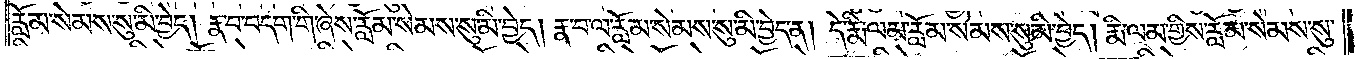རློམ་སེམས་སུ་མི་བྱེད། རྣ་བ་བདག་གི་ཞེས་རློམ་སེམས་སུ་མི་བྱེད། རྣ་བ་ལ་རློམ་སེམས་སུ་མི་བྱེད་ན། དེ་རྨི་ལམ་རློམ་སེམས་སུ་མི་བྱེད། རྨི་ལམ་གྱིས་རློམ་སེམས་སུ་
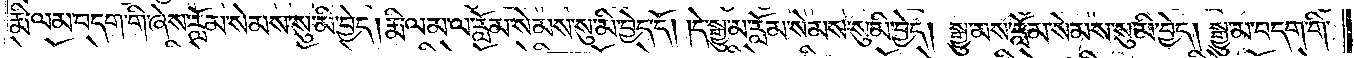རྨི་ལམ་བདག་གི་ཞེས་རློམ་སེམས་སུ་མི་བྱེད། རྨི་ལམ་ལ་རློམ་སེམས་སུ་མི་བྱེད་དོ། །དེ་སྒྱུ་མ་རློམ་སེམས་སུ་མི་བྱེད། སྒྱུ་མས་རློམ་སེམས་སུ་མི་བྱེད། སྒྱུ་མ་བདག་གི་
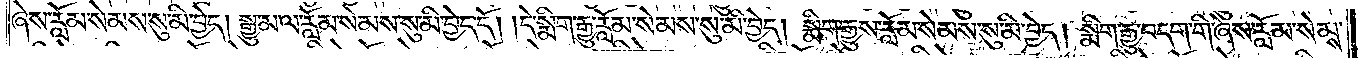ཞེས་རློམ་སེམས་སུ་མི་བྱེད། སྒྱུ་མ་ལ་རློམ་སེམས་སུ་མི་བྱེད་དོ། །དེ་སྨིག་རྒྱུ་རློམ་སེམས་སུ་མི་བྱེད། སྨིག་རྒྱུས་རློམ་སེམས་སུ་མི་བྱེད། སྨིག་རྒྱུ་བདག་གི་ཞེས་རློམ་སེམས་
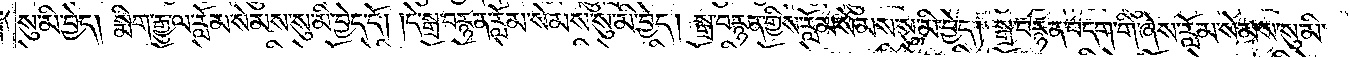སུ་མི་བྱེད། སྨིག་རྒྱུ་ལ་རློམ་སེམས་སུ་མི་བྱེད་དོ། །དེ་སྒྲ་བརྙན་རློམ་སེམས་སུ་མི་བྱེད། སྒྲ་བརྙན་གྱིས་རློམ་སེམས་སུ་མི་བྱེད། སྒྲ་བརྙན་བདག་གི་ཞེས་རློམ་སེམས་སུ་མི་
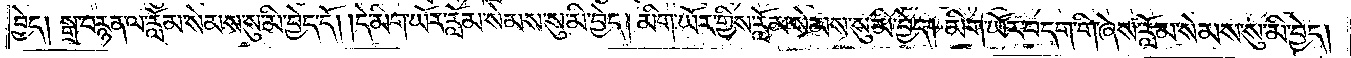བྱེད། སྒྲ་བརྙན་ལ་རློམ་སེམས་སུ་མི་བྱེད་དོ། །དེ་མིག་ཡོར་རློམ་སེམས་སུ་མི་བྱེད། མིག་ཡོར་གྱིས་རློམ་སེམས་སུ་མི་བྱེད། མིག་ཡོར་བདག་གི་ཞེས་རློམ་སེམས་སུ་མི་བྱེད།
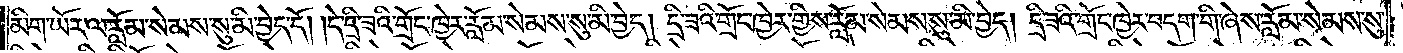མིག་ཡོར་ལ་རློམ་སེམས་སུ་མི་བྱེད་དོ། །དེ་དྲི་ཟའི་གྲོང་ཁྱེར་རློམ་སེམས་སུ་མི་བྱེད། དྲི་ཟའི་གྲོང་ཁྱེར་གྱིས་རློམ་སེམས་སུ་མི་བྱེད། དྲི་ཟའི་གྲོང་ཁྱེར་བདག་གི་ཞེས་རློམ་སེམས་སུ་
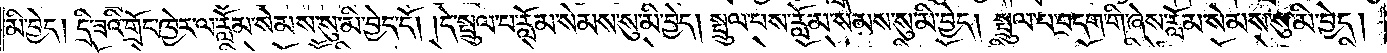མི་བྱེད། དྲི་ཟའི་གྲོང་ཁྱེར་ལ་རློམ་སེམས་སུ་མི་བྱེད་དོ། །དེ་སྤྲུལ་པ་རློམ་སེམས་སུ་མི་བྱེད། སྤྲུལ་པས་རློམ་སེམས་སུ་མི་བྱེད། སྤྲུལ་པ་བདག་གི་ཞེས་རློམ་སེམས་སུ་མི་བྱེད།
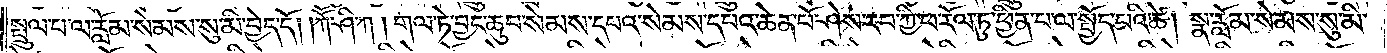སྤྲུལ་པ་ལ་རློམ་སེམས་སུ་མི་བྱེད་དོ། །ཀཽ་ཤི་ཀ། གལ་ཏེ་བྱང་ཆུབ་སེམས་དཔའ་སེམས་དཔའ་ཆེན་པོ་ཤེས་རབ་ཀྱི་ཕ་རོལ་ཏུ་ཕྱིན་པ་ལ་སྤྱོད་པའི་ཚེ། སྣ་རློམ་སེམས་སུ་མི་
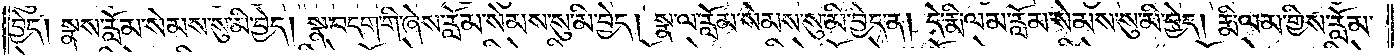བྱེད། སྣས་རློམ་སེམས་སུ་མི་བྱེད། སྣ་བདག་ཞེས་རློམ་སེམས་སུ་མི་བྱེད། སྣ་ལ་རློམ་སེམས་སུ་མི་བྱེད་ན། དེ་རྨི་ལམ་རློམ་སེམས་སུ་མི་བྱེད། རྨི་ལམ་གྱིས་རློམ་
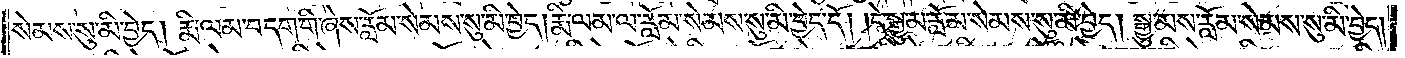སེམས་སུ་མི་བྱེད། རྨི་ལམ་བདག་གི་ཞེས་རློམ་སེམས་སུ་མི་བྱེད། རྨི་ལམ་ལ་རློམ་སེམས་སུ་མི་བྱེད་དོ། །དེ་སྒྱུ་མ་རློམ་སེམས་སུ་མི་བྱེད། སྒྱུ་མས་རློམ་སེམས་སུ་མི་བྱེད།
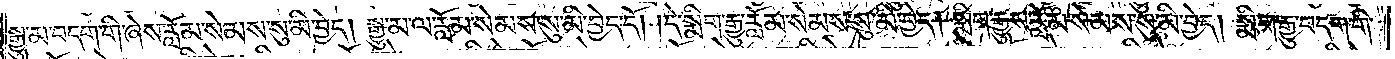སྒྱུ་མ་བདག་གི་ཞེས་རློམ་སེམས་སུ་མི་བྱེད། སྒྱུ་མ་ལ་རློམ་སེམས་སུ་མི་བྱེད་དོ། །དེ་སྨིག་རྒྱུ་རློམ་སེམས་སུ་མི་བྱེད། སྨིག་རྒྱུས་རློམ་སེམས་སུ་མི་བྱེད། སྨིག་རྒྱུ་བདག་གི་
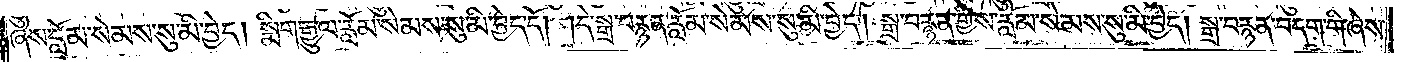ཞེས་རློམ་སེམས་སུ་མི་བྱེད། སྨིག་རྒྱུ་ལ་རློམ་སེམས་སུ་མི་བྱེད་དོ། །དེ་སྒྲ་བརྙན་རློམ་སེམས་སུ་མི་བྱེད། སྒྲ་བརྙན་གྱིས་རློམ་སེམས་སུ་མི་བྱེད། སྒྲ་བརྙན་བདག་གི་ཞེས་
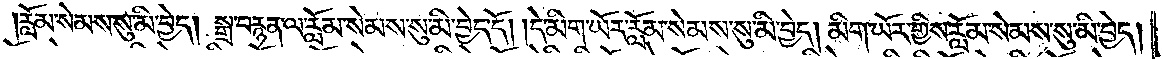རློམ་སེམས་སུ་མི་བྱེད། སྒྲ་བརྙན་ལ་རློམ་སེམས་སུ་མི་བྱེད་དོ། །དེ་མིག་ཡོར་རློམ་སེམས་སུ་མི་བྱེད། མིག་ཡོར་གྱིས་རློམ་སེམས་སུ་མི་བྱེད།
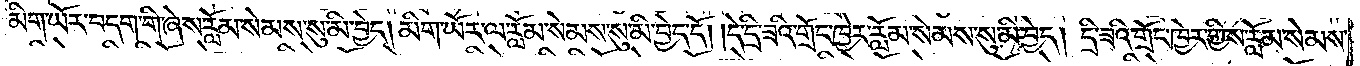མིག་ཡོར་བདག་གི་ཞེས་རློམ་སེམས་སུ་མི་བྱེད། མིག་ཡོར་ལ་རློམ་སེམས་སུ་མི་བྱེད་དོ། །དེ་དྲི་ཟའི་གྲོང་ཁྱེར་རློམ་སེམས་སུ་མི་བྱེད། དྲི་ཟའི་གྲོང་ཁྱེར་གྱིས་རློམ་སེམས་
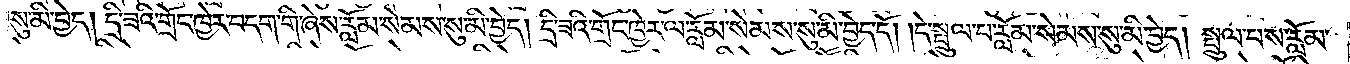སུ་མི་བྱེད། དྲི་ཟའི་གྲོང་ཁྱེར་བདག་གི་ཞེས་རློམ་སེམས་སུ་མི་བྱེད། དྲི་ཟའི་གྲོང་ཁྱེར་ལ་རློམ་སེམས་སུ་མི་བྱེད་དོ། །དེ་སྤྲུལ་པ་རློམ་སེམས་སུ་མི་བྱེད། སྤྲུལ་པས་རློམ་
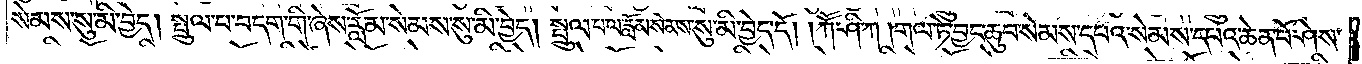སེམས་སུ་མི་བྱེད། སྤྲུལ་པ་བདག་གི་ཞེས་རློམ་སེམས་སུ་མི་བྱེད། སྤྲུལ་པ་ལ་རློམ་སེམས་སུ་མི་བྱེད་དོ། །ཀཽ་ཤི་ཀ། གལ་ཏེ་བྱང་ཆུབ་སེམས་དཔའ་སེམས་དཔའ་ཆེན་པོ་ཤེས་
